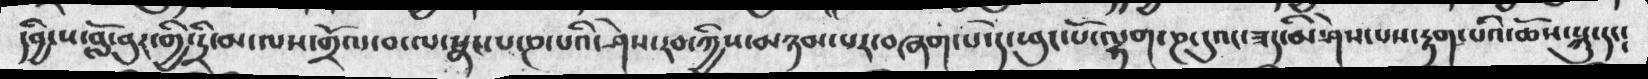དབྱིངས་བློ་བུར་གྱི་དྲི་མ་ལས་གྲོལ་བ་ལ་སྣང་པ་ཎ་པའི་ཤེས་རབ་ཀྱིས་མཉམ་པར་བཞག་པ་དེ་ཕུང་པོ་ལྷག་ཎ་དུའང་ཟད་མི་ཤེས་པས་རྟག་པའི་ཆོས་སྐུ་དང།
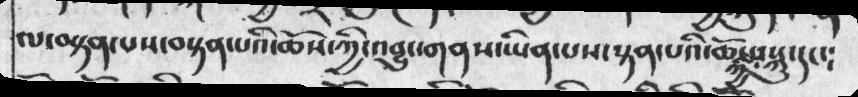ལ་བསྟན་པས་བསྟན་པའི་ཆོས་ཀྱི་འབྱུང་གནས་ཡིན་པས་སྟན་པའི་ཆོས་ཀྱི་བསྐུ་དང༴
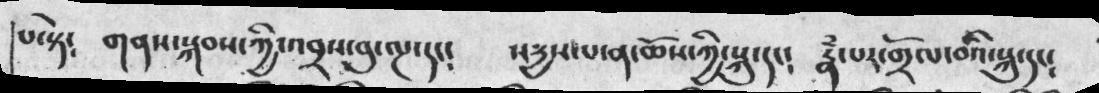།པ་སྟེ༴  གནས་སྐབས་ཀྱི་འབྲས་བུ་ལྔ་དང༴  སངས་དྱས་པ་ན་ཆོས་ཀྱི་སྐུ་དང༴  རྣཾ་པར་གྲོལ་བའི་སྐུ་དང༴
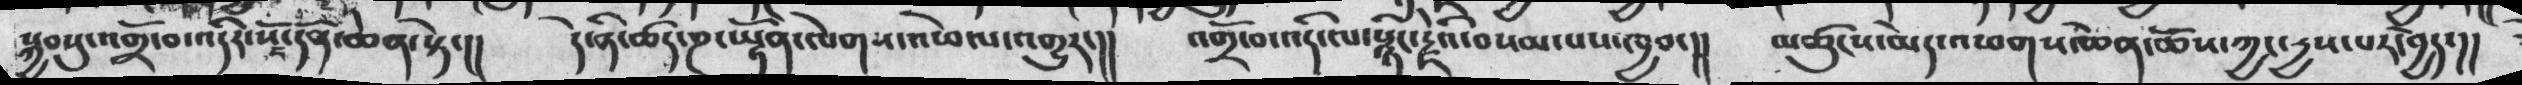སྐྱབས་འགྲོ་བ་འདིར་སོང་དོན་ཆེན་སྟེ་།།  དེ་ནི་ཚད་ཎ་ཡྟོན་ལེགས་འཕེལ་འགྱུར་།།    འགྲོ་བ་ལ་སྙིད་རྗེའི་བསམ་པས་ཁྱབ་།།   མཚུངས་མེད་འཕགས་ཆེན་ཆོས་ཀྱང་དྱས་པར་བྱེད་།།
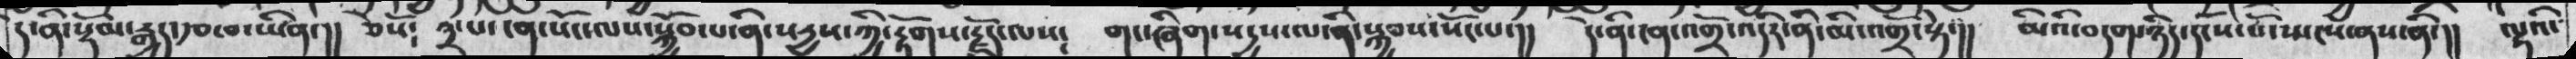ད་ནི་སྡོམ་རྒྱད་རྩ་བ་ཡིན་།།  ཅེསོ༴   ༣་པ་ངན་སོང་ལས་སྐྱོབས་ནི་སདྱས་ཀྱི་རྟོགས་རྗོད་ལས༴   གང་ཞིག་སདྱས་ལ་ནི་སྐྱབས་སོང་པ་།།  དེ་ནི་ངན་འགྲོ་འདིར་ནི་མི་འགྲོ་སྟེ་།།   མིའི་བདག་ཉིད་དངོས་པོ་སྤངས་ནས་ནི་།། ལྷའི་
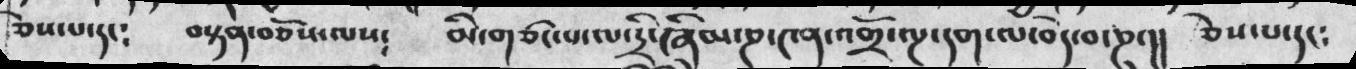ཅེས་པ་དང༴    བསྟན་བཅོས་ལས༴    མི་གཙང་པ་ལ་དྲི་ཞིམ་ཎ་༤ན་འགྲོ་ལྔ་དག་ལ་བདེ་བ་ཎ་།།    ཅེས་པ་དང༴
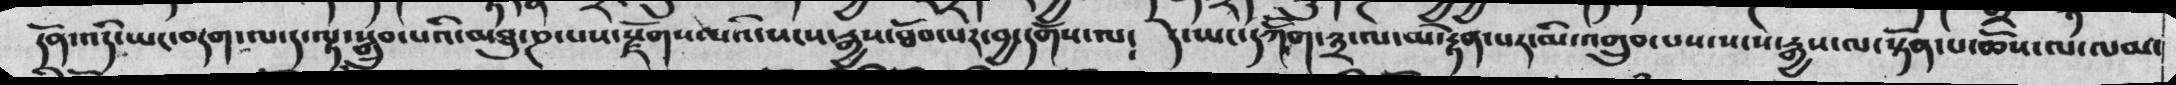དོན་འདི་ཡང་བདག་ལ་ད་ལྟ་སྒྲུབ་པའི་མཐུ་ཎ་པས་རྫོགས་པའི་སངས་རྒྱས་ཐོབ་པར་བྱ་དགོས་པ༴  དེ་ཡང་དཀོོག་༣་ལ་མ་རྟེན་་པར་མི་འགྲུབ་པས་སངས་རྒྱས་ལ་སྟོན་པ་ཆོས་ལ་ལམ་
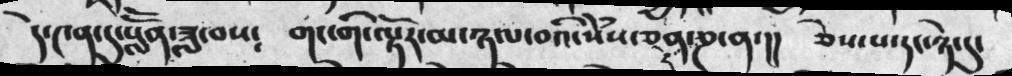དེ་༤ན་དུ་སློོན་ཟླ་བས༴   གང་གི་ལྟོར་མ་ཉལ་བའི་སེཾས་ཅན་དེ་ཎ་ན་།།   ཅེས་པ་དང་ཉེ་དུ་
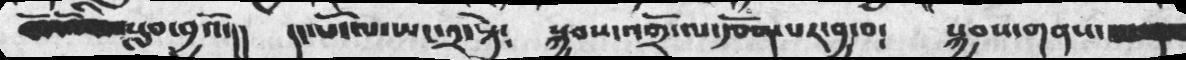སོ་སོའི་བསླབ་བྱའོ་།   དང་པོ་ལ་ཡང་༢་སྟ༴   སྐྱབས་འགྲོ་ལ་བརྩོན་པར་བྱ་བ༴   སྐྱབས་གནས་
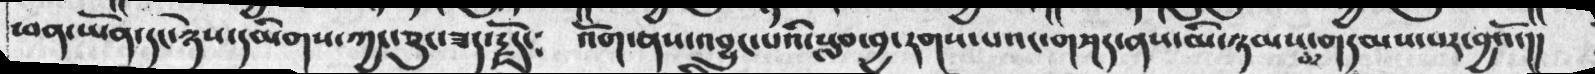ཕན་ཡོན་དང་ཉེས་དམིགས་ཀྱང་ཅུང་ཟད་རྗོད་༴   འོག་ནས་འབྱུང་པའི་སླབ་བྱ་རགས་པའང་གཤད་ནས་མི་ཉམས་བ་གདམས་པར་བྱའོ་།།
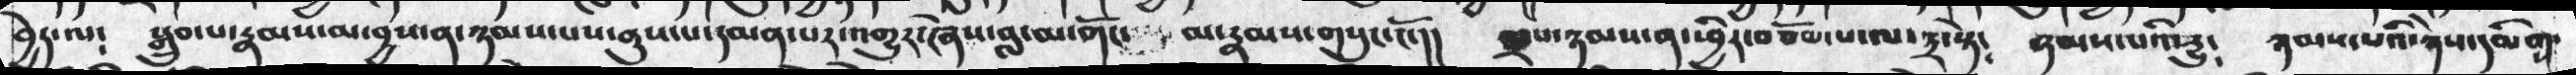བྱེད་ལ༴  སྒྲུབ་པ་རྣམས་མ་བྱས་ན་ཉམས་པས་ནུས་པ་དམན་པར་འགྱུར་ཞེས་བླ་མ་གོང་   མ་རྣམས་གསུང་ངོ་།།  ༣་པ་་ཉམས་ན་ཕྱིར་བཅོམ་པ་ལ་༣་སྟེ༴   ཉམས་པའི་དྱུ༴   ཉམས་པའི་ཉེས་དམིགས་
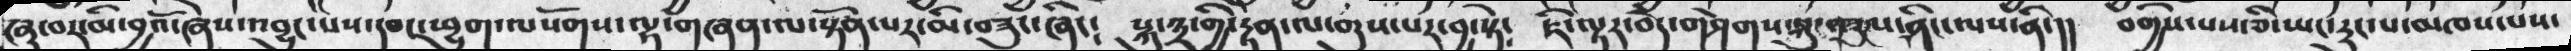ཞུ་བར་མི་བྱའོ་ཞེས་འབྱུང་པས་དབང་ཕྱུག་ལསོགས་ལྷ་གཞན་ལ་སྟོན་པར་མི་བཟུང་ཞིང༴   སྐུ་༣་གྱི་རྟེན་ལ་གུས་པར་བྱ་སྟེ༴   ཇི་ལྟར་བདེ་གཤེགས་སྐུ་གཟུགས་ཤིང་ལས་ནི་།།  བགྱིས་པས་ཅི་ཡང་རུང་པ་མཁས་པས་
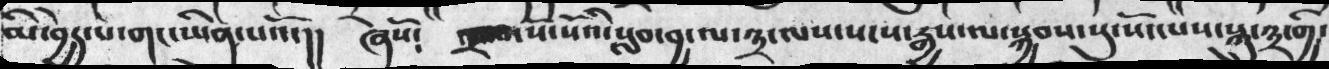མི་བྱེད་པ་གང་ཡིན་པའོ་།།   ཞེསོ༴   ༢་པ་སོ་སོའི་སླབ་བྱ་ལ་༣་ལས་སངས་རྒྱས་ལ་སྐྱབས་སུ་སོང་པས་སྐུ་༣་གྱི་
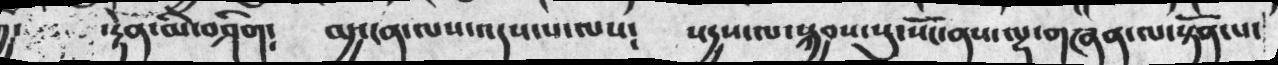་  རྟེན་མི་གཤིག༴   མྱ་ངན་ལས་འདས་པ་ལས༴   སདྱས་ལ་སྐྱབས་སུ་སོང་ནས་ལྷ་གཞན་ལ་སྟོན་པ་
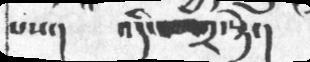པས་།  འདི་       ༢་སྟེ་།
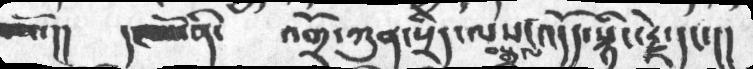།།   དང་པོ་ནི་    འགྲོ་ཀུན་སྲིད་ལས་བསྒྲལ་འདོད་སྙིང་རྗེ་དང་།།
